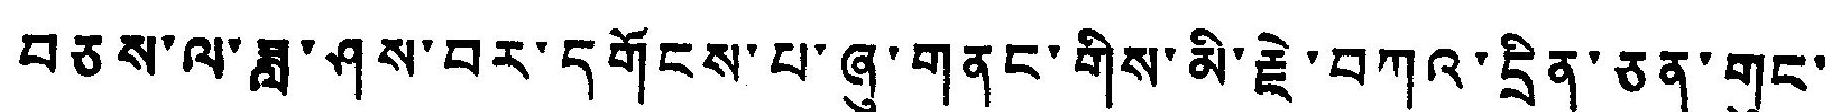བཅས་ལ་ཟླ་ཤས་བར་དགོངས་པ་ཞུ་གནང་གིས་མི་རྗེ་བཀའ་དྲིན་ཅན་གུང་
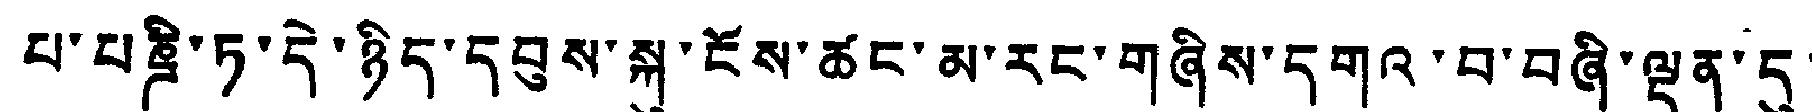པ་པཎྜི་ཏ་དེ་ཉིད་དབུས་སྐུ་ངོས་ཚང་མ་རང་གཞིས་དགའ་བ་བཞི་ལྡ་ན་དུ་
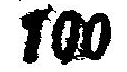100
